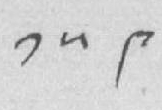༡༥༩
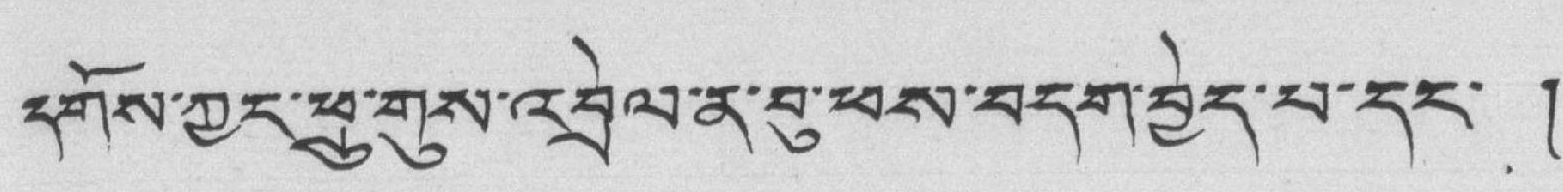དགོས་ཀྱང་ཕྲུ་གུས་འབྲེལ་ན་བུ་ཕས་བདག་བྱེད་པ་དང་ །
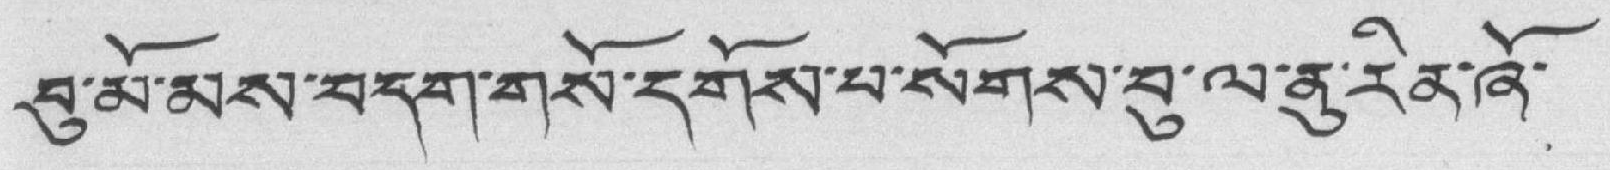བུ་མོ་མས་བདག་གསོ་དགོས་པ་སོགས་བུ་ལ་ནུ་རིན་ཞོ་
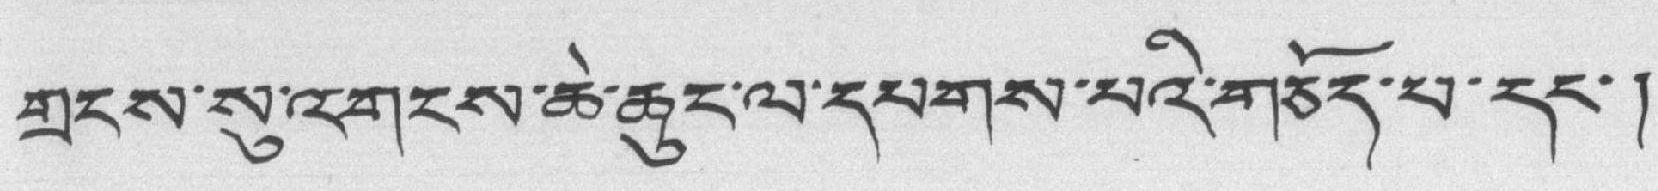གྲངས་སུ་འགངས་ཆེ་ཆུང་ལ་དཔགས་པའི་གཅོད་པ་དང་།
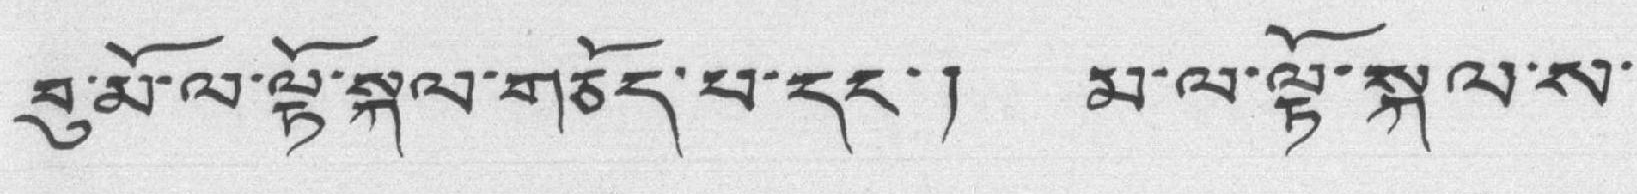བུ་མོ་ལ་ལྟོ་སྐལ་གཅོད་པ་དང་། མ་ལ་ལྟོ་སྐལ་ས་
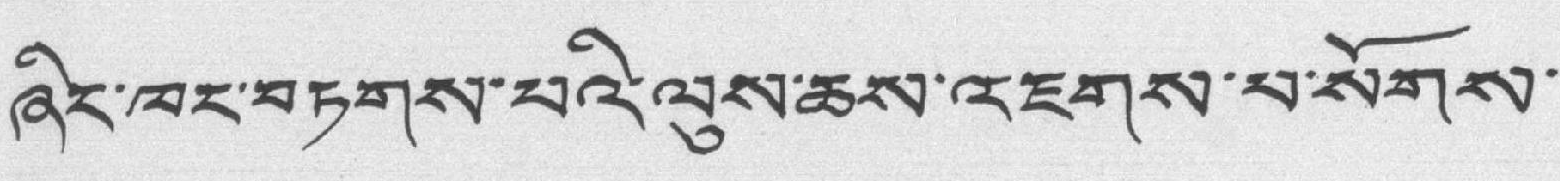ཞིང་ཁང་བཏགས་པའི་ལུས་ཆས་འཇགས་པ་སོགས་
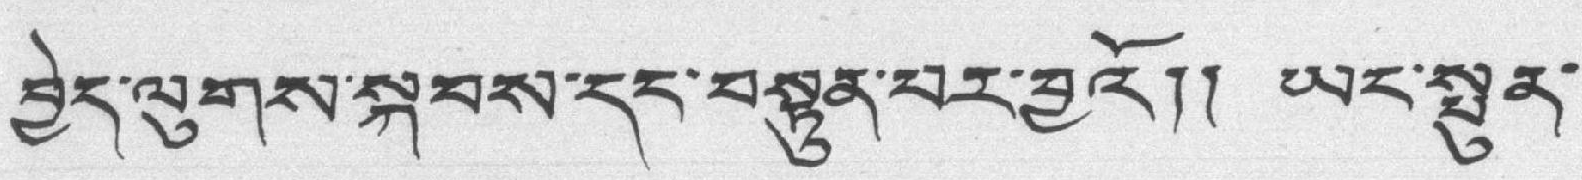བྱེད་ལུགས་སྐབས་དང་བསྟུན་པར་བྱའོ།། ཡང་སྤུན་
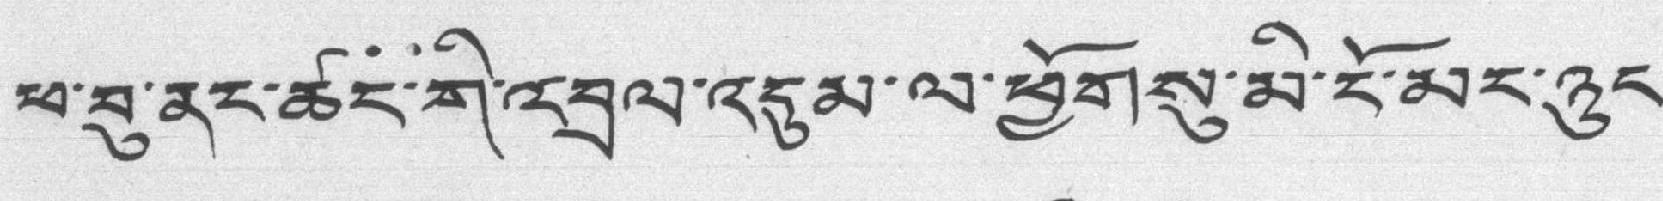ཕ་བུ་ནང་ཚང་གི་འབྲེལ་འདུམ་ལ་ཕྱོགསུ་མི་ངོ་མང་ཉུང་
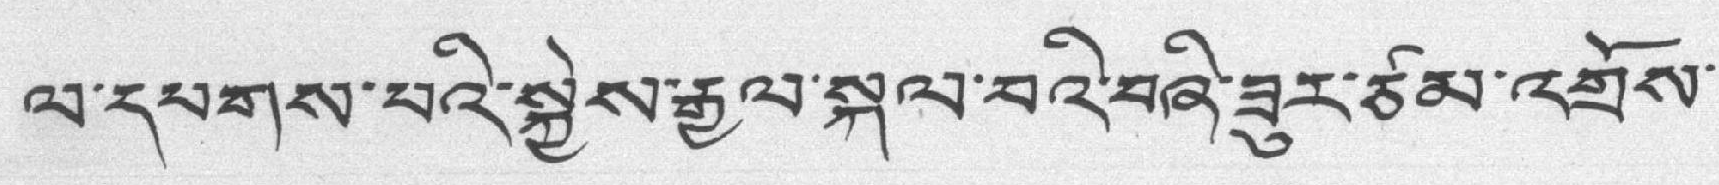ལ་དམགས་པའི་སྐྱེས་རྒྱལ་སྐལ་བའི་བཞི་ཟུར་ཙམ་འགྲོས་
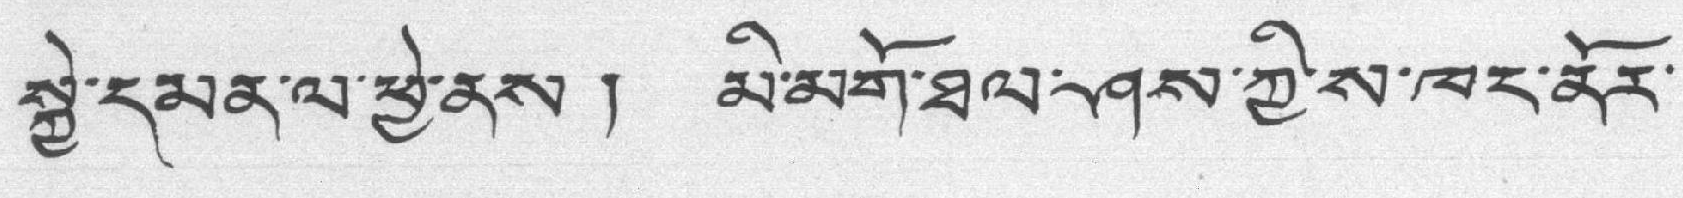སྐྱེ་དམན་ལ་ཕྱེ་ནས། མི་མགོ་ཐལ་ཤས་ཀྱི་ས་ཁང་ནོར་
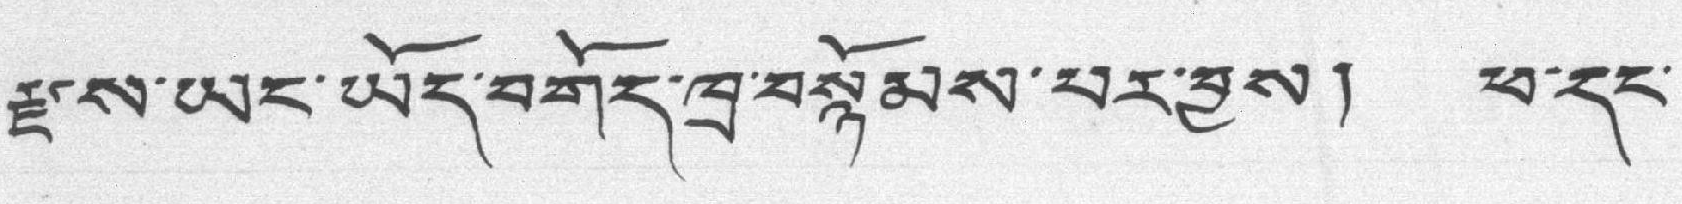རྫ་ས་ཡང་ཡོད་བགོད་ཁྲ་བསྙོམས་པར་བྱས། ཕ་དང་
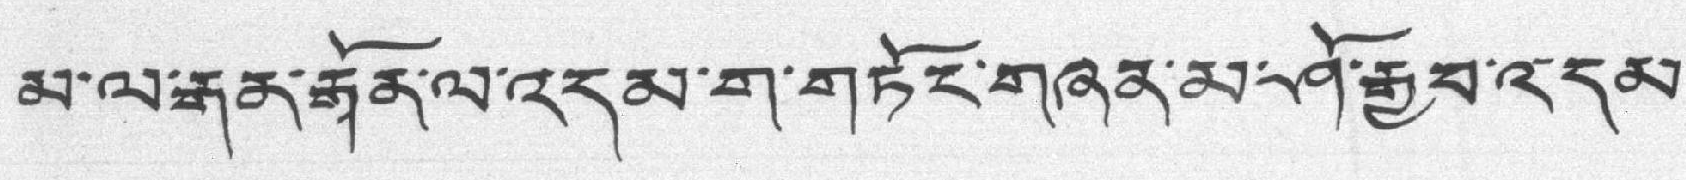མ་ལ་རྒན་རྒོན་ལ་འདམ་ག་གཏོང་གཞན་མ་ཤོ་རྒྱབ་འདམ་
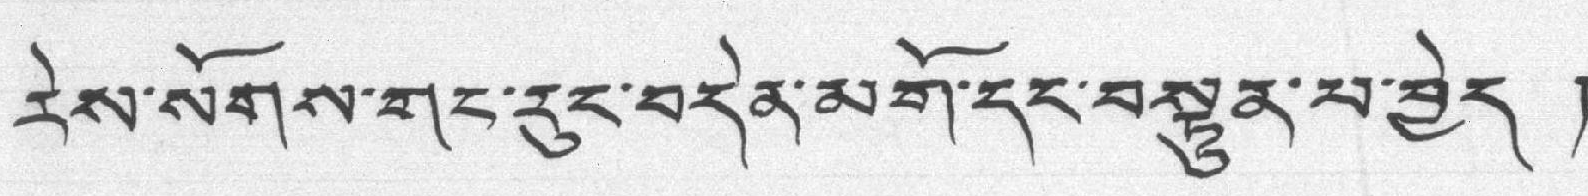རེས་སོགས་གང་རུང་བདེན་མགོ་དང་བསྟུན་པ་བྱེད །
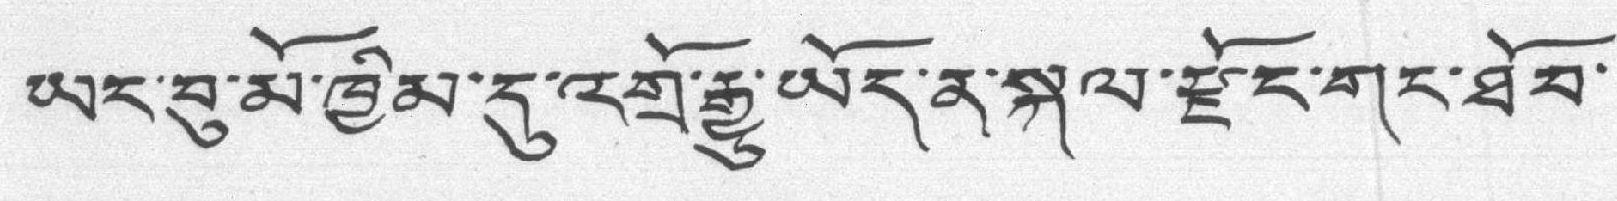ཡང་བུ་མོ་ཁྱིམ་དུ་འགྲོ་རྒྱུ་ཡོད་ན་སྐལ་རྫོང་གང་ཐོབ་
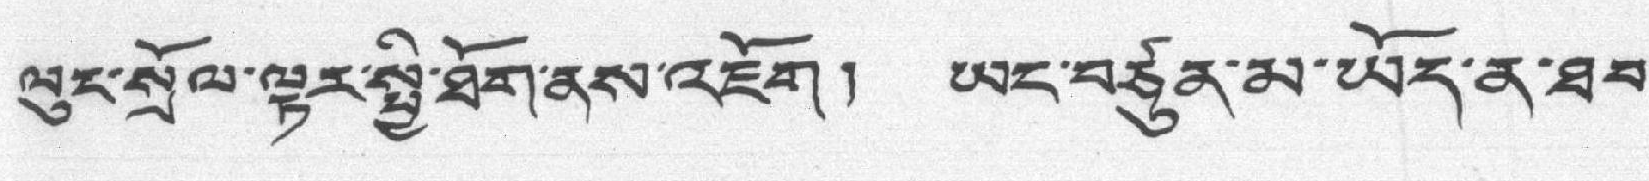ལུང་སྲོལ་ལྟར་སྤྱི་ཐོག་ནས་འཇོག ། ཡང་བཙུན་མ་ཡོད་ན་ཐབ་
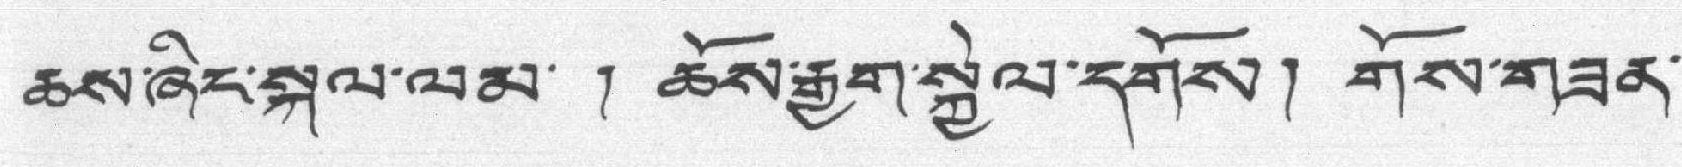ཆས་ཞིང་སྐལ་ལམ་ ། ཆོས་རྒྱག་སྐྱེལ་དགོས། གོས་གཟན་
